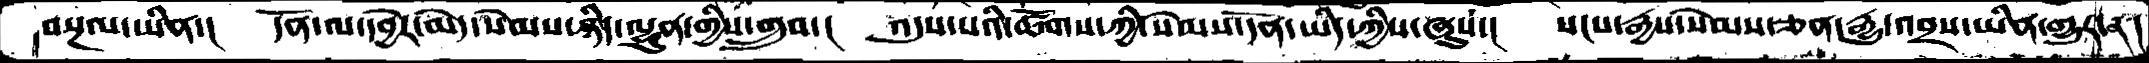བསྔལ་ཡིན་།  དོན་ལ་དབྱེར་མེད་སེམས་ཉིད་ལྷུན་གྱིས་གྲུབ་།  འདུས་པའི་ཚོགས་ཀྱི་སེམས་དོན་ཡིད་ཀྱིས་ཞུས་།  སངས་རྒྱས་སེམས་ཅན་རྒྱུ་འབྲས་ཡིན་གྱུར་ན་།
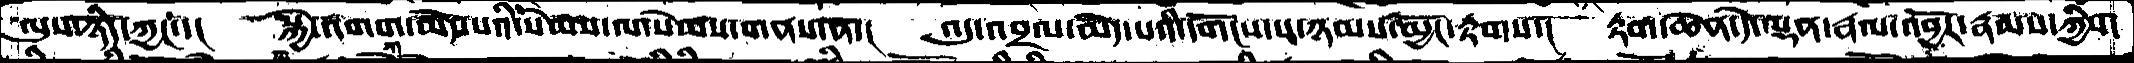ལུས་ཉིད་ཀྱང་།  སྐྱེ་འགག་མེད་པའི་སེམས་ལ་སེམས་གནས་ན་།  འདུ་འབྲལ་མེད་པའི་དགོངས་པ་ཉམས་མྱོང་རྟགས་།  རྟག་ཆེན་དེ་ལྡན་རྣལ་འབྱོར་རྣམས་ཀྱིས་
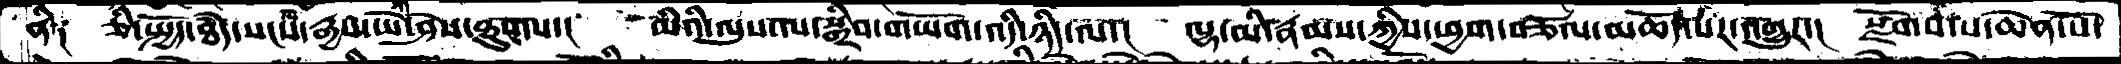ནི༑  ཅི་སྤྱོད་ཐཾད་སངས་རྒྱས་ཡེ་ཤེས་ཐུགས་། མིའི་ལུས་ལ་སྒྲིབ་གཡོག་འདི་ཉིད་ལ་། ལྷ་མི་རྣམས་ཀྱིས་ཕྱག་བཙལ་མཆོད་པར་འགྱུར་། སྫོགས་པ་ཆེན་པོ་
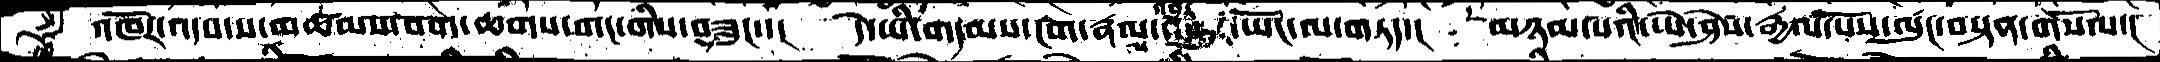འཁོར་འདས་ས་མཚམས་བག་ཆགས་གང་གིས་བཟུང་་།  དེ་ཡི་གདམས་ངག་རྣལ་འབྱོར་ཡོང་ལ་གཏད་། མཉམ་པའི་ཡེ་ཤེས་རྒྱལ་པོས་ལུང་བསྟན་གསོལ་།
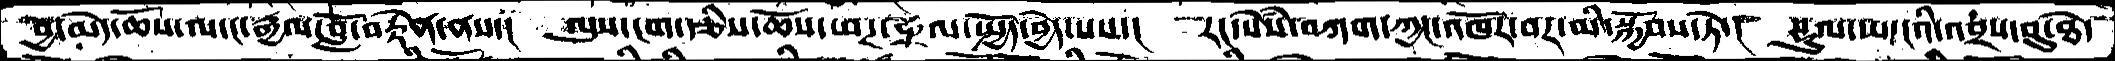བྱ་མེད་ཆོས་ལ་ང་རྒྱལ་བློ་བརྟེན་ནས་། ལུས་ངག་རྩིས་ཆོས་ཕཊ་ཧྲལ་སྤྱོད་བྱེད་པས་། རང་སེཾས་བཀག་ཀྱང་འཁོར་བར་མི་སྐྱོབས་ཏེ་། སྡུལ་ཡ་ངའི་འབྲས་བུ་ཐེ་
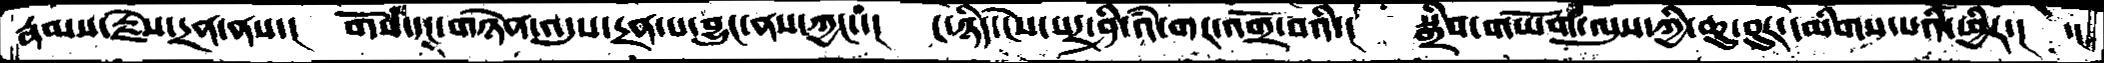རྣམས་རྗེས་དྲན་ནས་། གསོས་དང་གཉེན་འདུས་དྲན་པ་བྱུང་ནས་ཀྱང་་། ང་ཉིད་ངེས་པར་ཤི་འཾ་གར་འགྲོ་བའི་། སྒྲིབ་གཡོག་ལུས་ཀྱི་ཆུ་བུར་དམིགས་པའི་ཕྱིར་།  ་།
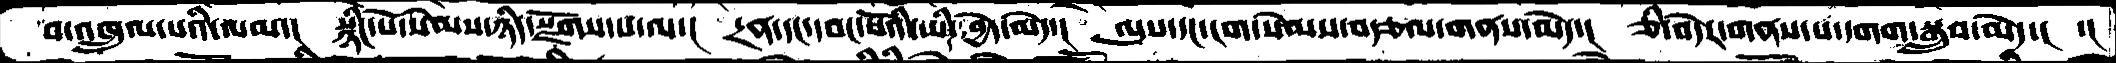བ་འཁྲུལ་པའི་ལམ་། སྙིང་པོ་སེམས་ཉིད་སྫོགས་པ་ལ་། དྲན་དང་དབང་པོའི་ཡིད་བྱེད་མེད་། ལུས་དང་ངག་སེམས་བརྩལ་གནས་མེད་། ཅི་བདེར་གནས་པ་དགག་སྒྲུབ་མེད་།  ་།
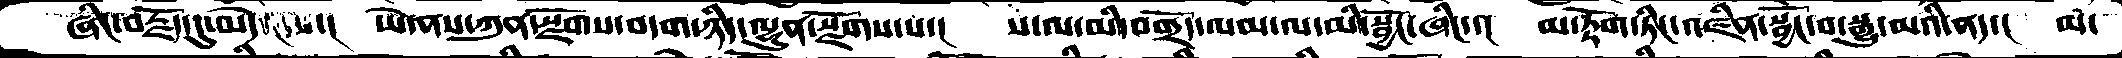ཞིང་བརྗོད་དུ་མེད་། ཡེ་ནས་ཀུན་སྫོགས་བདག་ཉིད་ལྷུན་སྫོགས་པ་། ས་ལ་མི་བགྲོད་ལམ་ལ་མི་སྦྱོང་ཞིང་་། མ་རྟོག་ཏིང་འཛིན་སྦྱོང་བ་སྒྱུ་མའི་ནད་། མ་
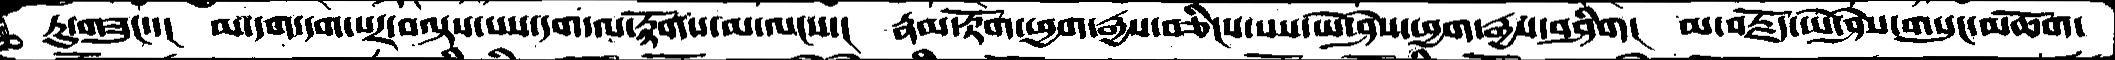ཏུ་གཟུང་་། མ་དག་དག་པར་བལྟས་པས་དག་ལ་རྟོགས་མ་ལངས་། རྣམ་རྟོག་ཕྱག་རྒྱས་བཅིངས་པས་ཡེ་ཤེས་ཕྱག་རྒྱས་བཤིག། མ་བརྗོད་ཡེ་ཤེས་གསུང་མཆོག་
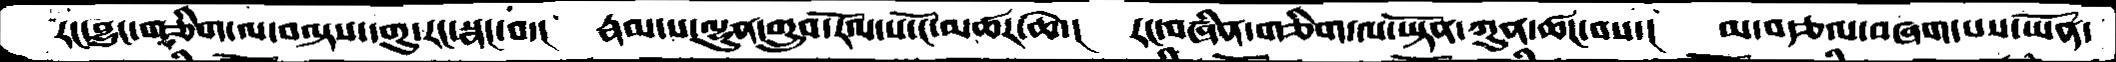རང་བྱུང་གཅིག་ལ་བལྟས་དགུ་རང་སྣང་བ་། རྣམ་པ་ལྷུན་གྲུབ་རོལ་པ་ངོ་མཚར་ཆེ་། རང་བཞིན་གཅིག་ལ་ཡྟོན་ཀུན་ཚང་བས་། མ་བརྩལ་བཞག་པས་ཡོན་
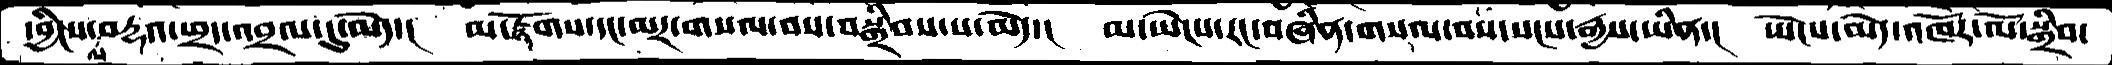དབྱིངས་ལ་བརྡའ་ཕྲད་འབྲལ་དུ་མེད་། མ་རྟོགས་དང་མར་གསལ་བས་བསྒྲིབས་པ་མེད་། མ་ཡེངས་རང་བཞིན་གསལ་བས་སངས་རྒྱས་ཡིན་། ཡེངས་མེད་འཁོར་ལོ་སྒྲིབ་
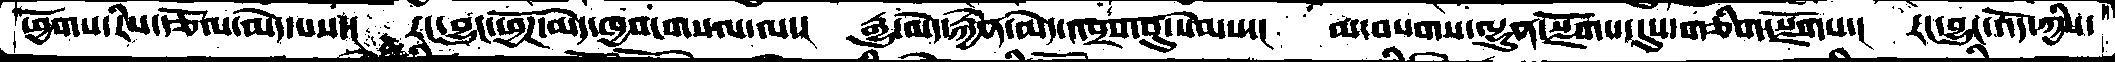ཕྱོགས་རིས་རྩོལ་མེད་པས་།  རང་བྱུང་ཕྱོཌ་མེད་ཁྱབ་གསལ་ལ་། རྒྱུ་མེད་རྐྱེན་མེད་འབྲས་བུ་སེམས་། མ་བསགས་ལྷུན་སྫོགས་དུས་གཅིག་སྫོགས་། རང་བྱུང་འོད་ཀྱིས་
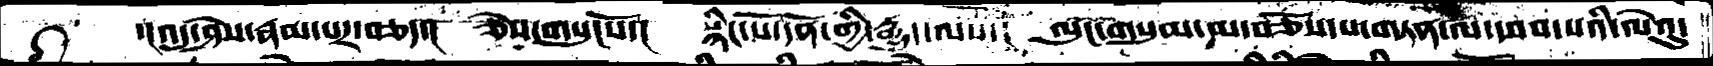་།འདུ་ཤེས་རྣམ་པར་བཅད་། ཅེས་གསུངསོ་། སྙིང་པོ་དོན་གྱི་རྒྱུད་ལས་། ལུང་གསུམ་མ་བཅོས་པ་གཏན་ལ་ཕབ་པའི་ལེའུ་
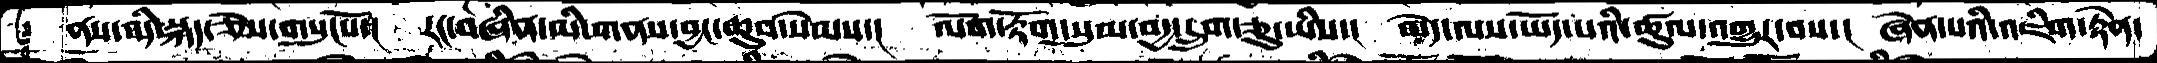ནས་འདི་སྐད་ཅེས་གསུངསོ་། རང་བཞིན་མི་གནས་བྱང་ཆུབ་སེམས་། ལོག་རྟོག་སུམ་བདྱ་དྲུག་ཅུ་ཡིས་། མེད་ལས་ཡོད་པའི་ཚུལ་འགྱུར་བས་། ཞེན་པའི་འཇིག་རྟེན་
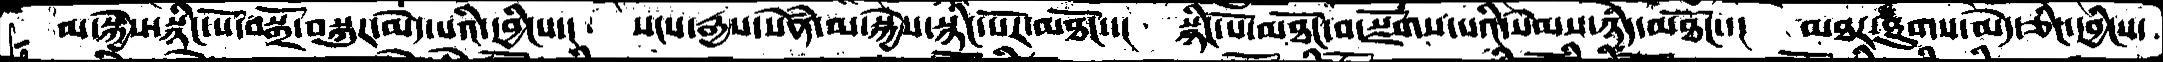མ་སྐྱེས་སྙིང་པོ་བསྒྲོ་བསྐུར་མེད་པའི་དབྱིངས་། སངས་རྒྱས་སེཾན་མ་སྐྱེས་སྙིང་པོར་མཐོང་་།  སྙིང་པོ་མཐོང་བ་སྫོགས་པའི་སེམས་ཉིད་མཐོང་་། མཐར་ཐུགས་མེད་ཅིང་དབྱིངས་
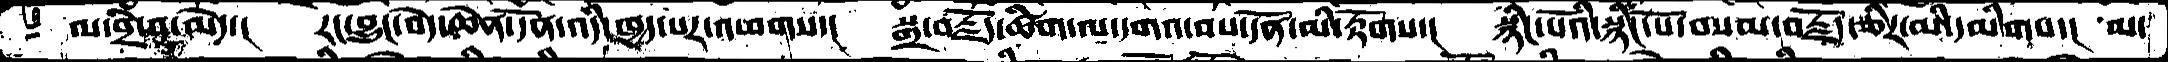ལ་བྲི་ན་མེད་།  རང་བྱུང་བདེ་ཆེན་དོན་འདི་ཁྱད་པར་འཕགས་།  སྒྲ་བརྗོད་ཚིག་ལ་དགའ་བས་དོན་མི་རྟོགས་། སྙིང་པོའི་སྙིང་པོ་བསམ་བརྗོད་ཅིར་མི་དམིགས་།  མ་
